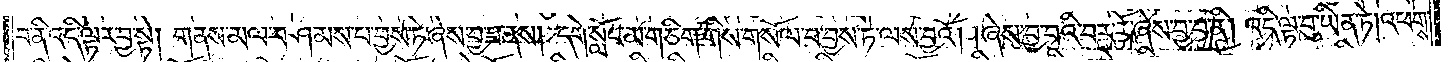བ་ནི་འདི་ལྟར་བྱ་སྟེ། གནས་མལ་བཤམས་པ་བྱས་ཏེ་ཞེས་བྱ་བ་ནས། དགེ་སློང་མ་གཅིག་གིས་གསོལ་བ་བྱས་ཏེ་ལས་བྱའོ། །ཞེས་བྱ་བའི་བར་རོ་ཞེས་བྱ་བ་ནི། འདི་ལྟ་བུ་ཡིན་ཏེ། འཕགས་
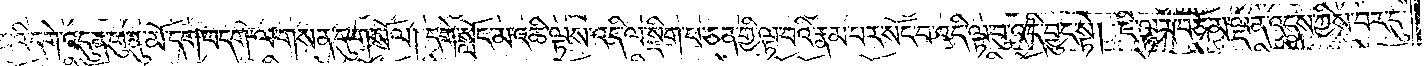མའི་དགེ་འདུན་ཕུ་ནུ་མོ་དག་བདག་ལ་གསན་དུ་གསོལ། དགེ་སློང་མ་འཆི་ལྟས་འདི་ལ་སྡིག་པ་ཅན་གྱི་ལྟ་བའི་རྣམ་པར་སོང་བ་འདི་ལྟ་བུ་འདི་བྱུང་སྟེ། ཇི་ལྟར་བཅོམ་ལྡན་འདས་ཀྱིས་བར་དུ་
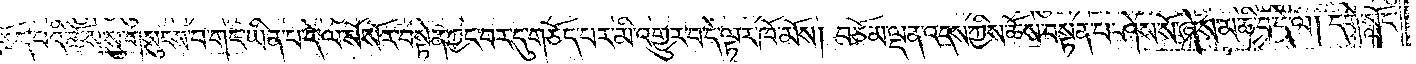གཅོད་པའི་ཆོས་སུ་གསུངས་པ་གང་ཡིན་པ་དེ་ལ་སོ་སོར་བསྟེན་ཀྱང་བར་དུ་གཅོད་པར་མི་འགྱུར་བ་དེ་ལྟར་ཁོ་མོས། བཅོམ་ལྡན་འདས་ཀྱིས་ཆོས་བསྟན་པ་ཤེས་སོ་ཞེས་མཆི་བ་དེ་ལ། དགེ་སློང་
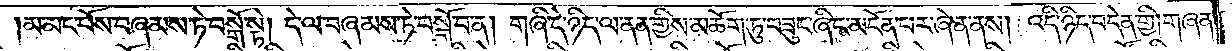མ་མང་པོས་བཞམས་ཏེ་བསྒོ་སྟེ། དེ་ལ་བཞམས་ཏེ་བསྒོ་བ་ན། གཞི་དེ་ཉིད་ལ་ནན་གྱིས་མཆོག་ཏུ་བཟུང་ཞིང་མངོན་པར་ཞེན་ནས། འདི་ཉིད་བདེན་གྱི། གཞན་
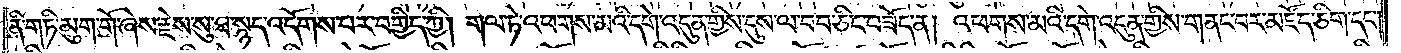ནི་གཏི་མུག་གོ་ཞེས་རྗེས་སུ་ཐ་སྙད་འདོགས་པར་བགྱིད་ཀྱི། གལ་ཏེ་འཕགས་མའི་དགེ་འདུན་གྱིས་དུས་ལ་བབ་ཅིང་བཟོད་ན། འཕགས་མའི་དགེ་འདུན་གྱིས་གནང་བར་མཛོད་ཅིག་དང༌།
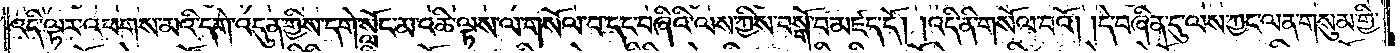འདི་ལྟར་འཕགས་མའི་དགེ་འདུན་གྱིས་དགེ་སློང་མ་འཆི་ལྟས་ལ་གསོལ་བ་དང་བཞིའི་ལས་ཀྱིས་བསྒོ་བ་མཛད་དོ། །འདི་ནི་གསོལ་བའོ། །དེ་བཞིན་དུ་ལས་ཀྱང་ལན་གསུམ་གྱི་
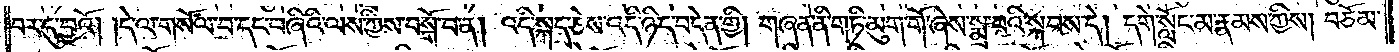བར་དུ་བྱའོ། །དེ་ལ་གསོལ་བ་དང་བཞིའི་ལས་ཀྱིས་བསྒོ་བ་ན། འདི་སྐད་ཅེས་འདི་ཉིད་བདེན་གྱི། གཞན་ནི་གཏི་མུག་གོ་ཞེས་སྨྲ་བའི་སྐབས་དེ། དགེ་སློང་མ་རྣམས་ཀྱིས། བཅོམ་
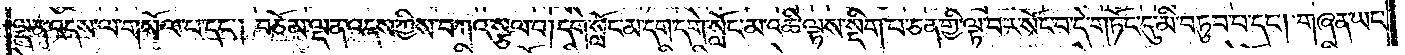ལྡན་འདས་ལ་གསོལ་པ་དང༌། བཅོམ་ལྡན་འདས་ཀྱིས་བཀའ་སྩལ་པ། དགེ་སློང་མ་དག་དགེ་སློང་མ་འཆི་ལྟས་སྡིག་པ་ཅན་གྱི་ལྟ་བར་སོང་བ་དེ་གཏོང་དུ་མི་བཏུབ་པ་དང༌། གཞན་ཡང་
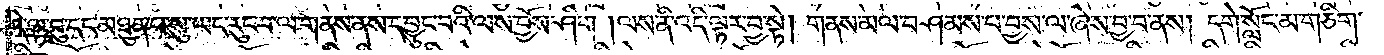དེ་ལྟ་བུ་དང་མཐུན་པ་སུ་ཡང་རུང་བ་ལ་གནས་ནས་དབྱུང་བའི་ལས་བྱོས་ཤིག །ལས་ནི་འདི་ལྟར་བྱ་སྟེ། གནས་མལ་བཤམས་པ་བྱས་ལ་ཞེས་བྱ་བ་ནས། དགེ་སློང་མ་གཅིག་
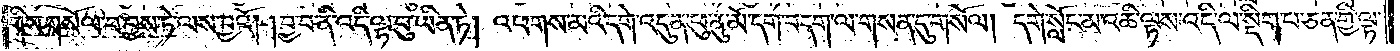གིས་གསོལ་བ་བྱས་ཏེ་ལས་བྱའོ། །བྱ་བ་ནི་འདི་ལྟ་བུ་ཡིན་ཏེ། འཕགས་མའི་དགེ་འདུན་ཕུ་ནུ་མོ་དག་བདག་ལ་གསན་དུ་གསོལ། དགེ་སློང་མ་འཆི་ལྟས་འདི་ལ་སྡིག་པ་ཅན་གྱི་ལྟ་
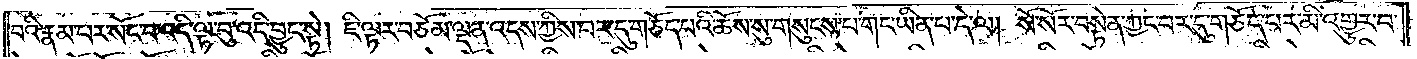བའི་རྣམ་པར་སོང་བ་འདི་ལྟ་བུ་འདི་བྱུང་སྟེ། ཇི་ལྟར་བཅོམ་ལྡན་འདས་ཀྱིས་བར་དུ་གཅོད་པའི་ཆོས་སུ་གསུངས་པ་གང་ཡིན་པ་དེ་ལ། སོ་སོར་བསྟེན་ཀྱང་བར་དུ་གཅོད་པར་མི་འགྱུར་བ་
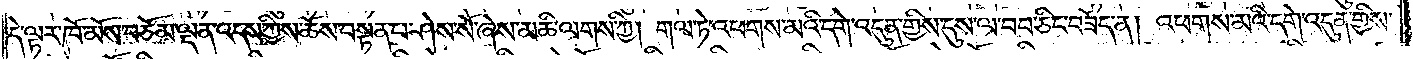དེ་ལྟར་ཁོ་མོས་བཅོམ་ལྡན་འདས་ཀྱིས་ཆོས་བསྟན་པ་ཤེས་སོ་ཞེས་མཆི་ལགས་ཀྱི། གལ་ཏེ་འཕགས་མའི་དགེ་འདུན་གྱིས་དུས་ལ་བབ་ཅིང་བཟོད་ན། འཕགས་མའི་དགེ་འདུན་གྱིས་
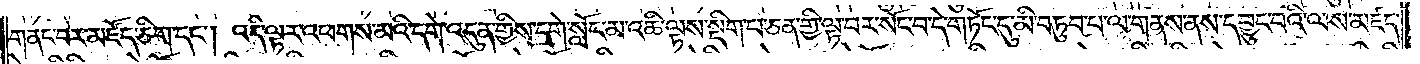གནང་བར་མཛོད་ཅིག་དང༌། འདི་ལྟར་འཕགས་མའི་དགེ་འདུན་གྱིས་དགེ་སློང་མ་འཆི་ལྟས་སྡིག་པ་ཅན་གྱི་ལྟ་བར་སོང་བ་དེ་གཏོང་དུ་མི་བཏུབ་པ་ལ་གནས་ནས་དབྱུང་བའི་ལས་མཛད་
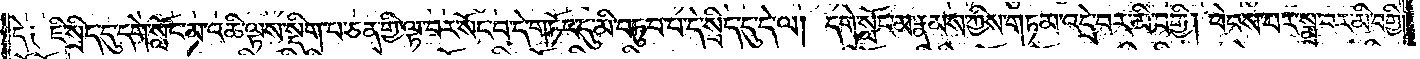དེ༑ ཇི་སྲིད་དུ་དགེ་སློང་མ་འཆི་ལྟས་སྡིག་པ་ཅན་གྱི་ལྟ་བར་སོང་བ་དེ་གཏོང་དུ་མི་བཏུབ་པ་དེ་སྲིད་དུ་དེ་ལ། དགེ་སློང་མ་རྣམས་ཀྱིས་གཏམ་འདྲེ་བར་མི་བགྱི། ཕེབས་པར་སྨྲ་བར་མི་བགྱི་
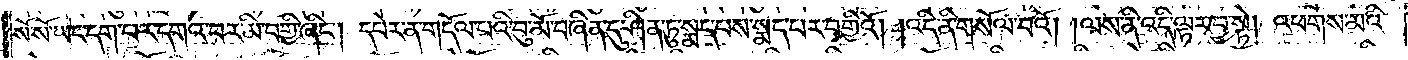སོ་སོ་ཡང་དག་པར་དགའ་བར་མི་བགྱི་ཞིང༌། དཔེར་ན་གདོལ་པའི་བུ་མོ་བཞིན་དུ་ཤིན་ཏུ་སྨད་པས་སྨད་པར་བགྱིའོ། །འདི་ནི་གསོལ་བའོ། །ལས་ནི་འདི་ལྟར་བྱ་སྟེ། འཕགས་མའི་
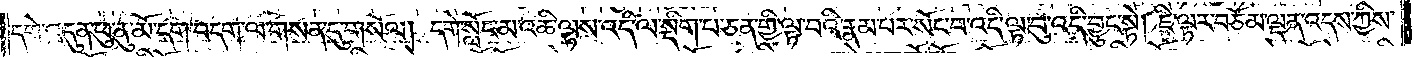དགེ་འདུན་ཕུ་ནུ་མོ་དག་བདག་ལ་གསན་དུ་གསོལ། དགེ་སློང་མ་འཆི་ལྟས་འདི་ལ་སྡིག་པ་ཅན་གྱི་ལྟ་བའི་རྣམ་པར་སོང་བ་འདི་ལྟ་བུ་འདི་བྱུང་སྟེ། ཇི་ལྟར་བཅོམ་ལྡན་འདས་ཀྱིས་
